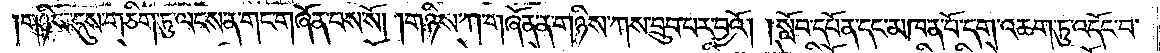གཉིས་དུས་གཅིག་ཏུ་ལངས་ན་གང་གཞོན་པས་སོ། །གཉིས་ཀ་གཞོན་ན་གཉིས་ཀས་བྲུབ་བར་བྱའོ། །སློབ་དཔོན་དང་མཁན་པོ་དག་འཆག་ཏུ་འདོང་པ་
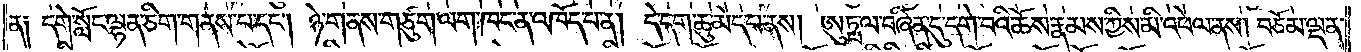ན། དགེ་སློང་ལྷན་ཅིག་གནས་པ་དང༌། ཉེ་གནས་གཙུག་ལག་ཁང་ན་འཁོད་པ་ན། དེ་དག་ཆུ་མེད་པ་ནས། ཨུཏྤ་ལ་བཞིན་དུ་དགེ་བའི་ཆོས་རྣམས་ཀྱིས་མི་འཕེལ་ནས། བཅོམ་ལྡན་
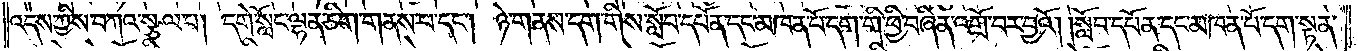འདས་ཀྱིས་བཀའ་སྩལ་པ། དགེ་སློང་ལྷན་ཅིག་གནས་པ་དང༌། ཉེ་གནས་དག་གིས་སློབ་དཔོན་དང་མཁན་པོ་དག་གི་ཕྱི་བཞིན་འགྲོ་བར་བྱའོ། །སློབ་དཔོན་དང་མཁན་པོ་དག་སྟན་
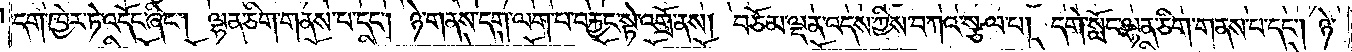དག་ཁྱེར་ཏེ་འདོང་ཞིང༌། ལྷན་ཅིག་གནས་པ་དང༌། ཉེ་གནས་དག་ལག་པ་བརྐྱང་སྟེ་འགྲོ་ནས། བཅོམ་ལྡན་འདས་ཀྱིས་བཀའ་སྩལ་པ། དགེ་སློང་ལྷན་ཅིག་གནས་པ་དང༌། ཉེ་
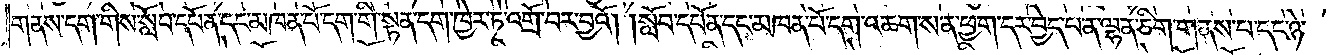གནས་དག་གིས་སློབ་དཔོན་དང་མཁན་པོ་དག་གི་སྟན་དག་ཁྱེར་ཏེ་འགྲོ་བར་བྱའོ། །སློབ་དཔོན་དང་མཁན་པོ་དག་འཆག་ས་ན་ཕྱག་དར་བྱེད་པ་ན་ལྷན་ཅིག་གནས་པ་དང་ཉེ་
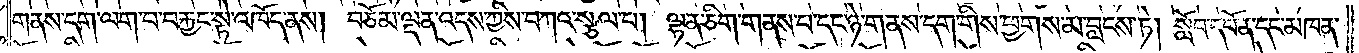གནས་དག་ལག་པ་བརྐྱང་སྟེ་འཁོད་ནས། བཅོམ་ལྡན་འདས་ཀྱིས་བཀའ་སྩལ་པ། ལྷན་ཅིག་གནས་པ་དང་ཉེ་གནས་དག་གིས་ཕྱགས་མ་བླངས་ཏེ། སློབ་དཔོན་དང་མཁན་
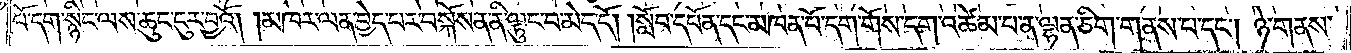པོ་དག་སྙིང་ལས་ཆུང་ངུར་བྱའོ། །མཁར་ལན་བྱེད་པར་བསྐོས་ན་ནི་ལྟུང་བ་མེད་དོ། །སློབ་དཔོན་དང་མཁན་པོ་དག་གོས་དག་འཚེམ་པ་ན་ལྷན་ཅིག་གནས་པ་དང༌། ཉེ་གནས་
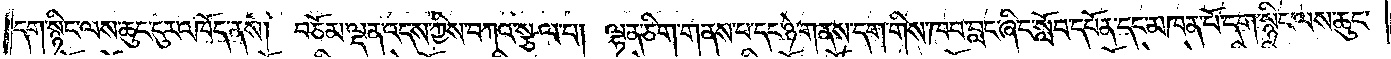དག་སྙིང་ལས་ཆུང་ངུར་འཁོད་ནས། བཅོམ་ལྡན་འདས་ཀྱིས་བཀའ་སྩལ་པ། ལྷན་ཅིག་གནས་པ་དང་ཉེ་གནས་དག་གིས་ཁབ་བླང་ཞིང་སློབ་དཔོན་དང་མཁན་པོ་དག་སྙིང་ལས་ཆུང་
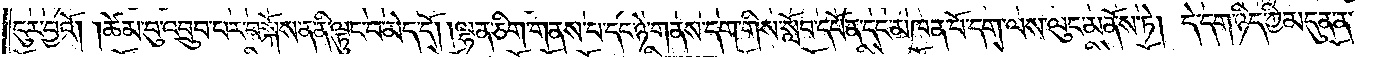ངུར་བྱའོ། །ཚེམ་བུ་འབྲུབ་པར་བསྐོས་ན་ནི་ལྟུང་བ་མེད་དོ། །ལྷན་ཅིག་གནས་པ་དང་ཉེ་གནས་དག་གིས་སློབ་དཔོན་དང་མཁན་པོ་དག་ལས་ལུང་མནོས་ཏེ། དེ་དག་ཉིད་ཀྱི་མདུན་ན་
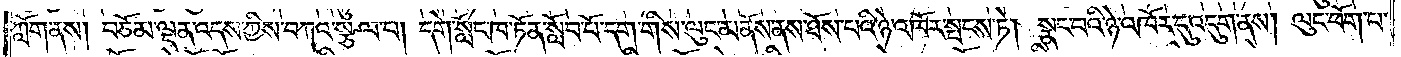ཀློག་ནས། བཅོམ་ལྡན་འདས་ཀྱིས་བཀའ་སྩལ་པ། དགེ་སློང་ཁ་ཏོན་སློབ་པོ་དག་གིས་ལུང་མནོས་ནས་ཐོས་པའི་ཉེ་འཁོར་སྤངས་ཏེ། སྣང་བའི་ཉེ་འཁོར་དུ་འདུག་ནས། ལུང་ཕོག་པ་
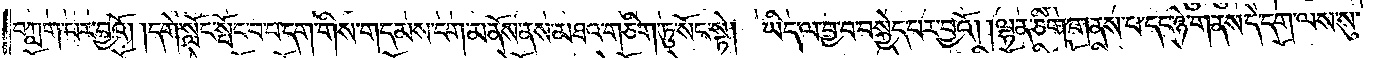བཀླག་པར་བྱའོ། །དགེ་སློང་སྤོང་བ་པ་དག་གིས་གདམས་ངག་མནོས་ནས་མཐའ་གཅིག་ཏུ་སོང་སྟེ། ཡིད་ལ་བྱ་བ་བསྐྱེད་པར་བྱའོ། །ལྷན་ཅིག་གནས་པ་དང་ཉེ་གནས་དེ་དག་ལས་སུ་
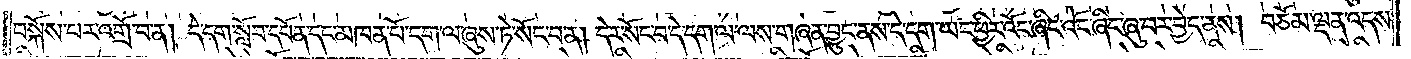བསྐོས་པར་འགྲོ་བ་ན། དེ་དག་སློབ་དཔོན་དང་མཁན་པོ་དག་ལ་ཞུས་ཏེ་སོང་བ་ན། དེར་སོང་བ་དེ་དག་ལ་ལས་གཞན་བྱུང་ནས་དེ་དག་ཡང་ཕྱིར་འོང་ཞིང་འོང་ཞིང་ཞུ་བར་བྱེད་ནས། བཅོམ་ལྡན་འདས་
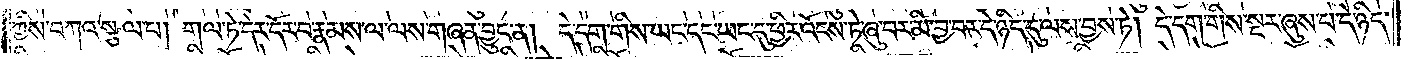ཀྱིས་བཀའ་སྩལ་པ། གལ་ཏེ་དེར་དོར་བ་རྣམས་ལ་ལས་གཞན་བྱུང་ན། དེ་དག་གིས་ཡང་དང་ཡང་དུ་ཕྱིར་འོངས་ཏེ་ཞུ་བར་མི་བྱ་བར་དེ་ཉིད་དུ་ལས་བྱས་ཏེ། དེ་དག་གིས་སྔར་ཞུས་པ་དེ་ཉིད་
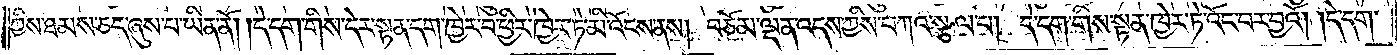ཀྱིས་ཐམས་ཅད་ཞུས་པ་ཡིན་ནོ། །དེ་དག་གིས་དེར་སྟན་དག་ཁྱེར་བ་ཕྱིར་ཁྱེར་ཏེ་མི་འོངས་ནས། བཅོམ་ལྡན་འདས་ཀྱིས་བཀའ་སྩལ་པ། དེ་དག་གིས་སྟན་ཁྱེར་ཏེ་འོང་བར་བྱའོ། །དེ་དག་
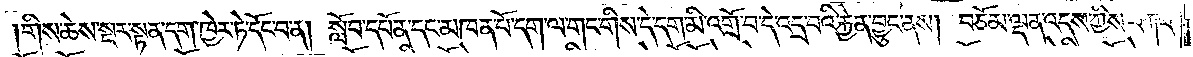གིས་ཆེས་སྔར་སྟན་དག་ཁྱེར་ཏེ་དོང་བ་ན། སློབ་དཔོན་དང་མཁན་པོ་དག་ལ་གང་གིས་དེ་དག་མི་འགྲོ་བ་དེ་འདྲ་བའི་རྐྱེན་བྱུང་ནས། བཅོམ་ལྡན་འདས་ཀྱིས་བཀའ་
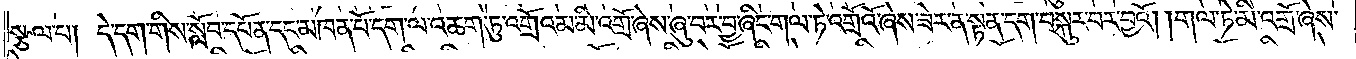སྩལ་པ། དེ་དག་གིས་སློབ་དཔོན་དང་མཁན་པོ་དག་ལ་འཆག་ཏུ་འགྲོའམ་མི་འགྲོ་ཞེས་ཞུ་བར་བྱ་ཞིང་གལ་ཏེ་འགྲོའོ་ཞེས་ཟེར་ན་སྟན་དག་བསྐུར་བར་བྱའོ། །གལ་ཏེ་མི་འགྲོ་ཞེས་
